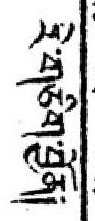རེ་གཅིག་རྒྱོན་།
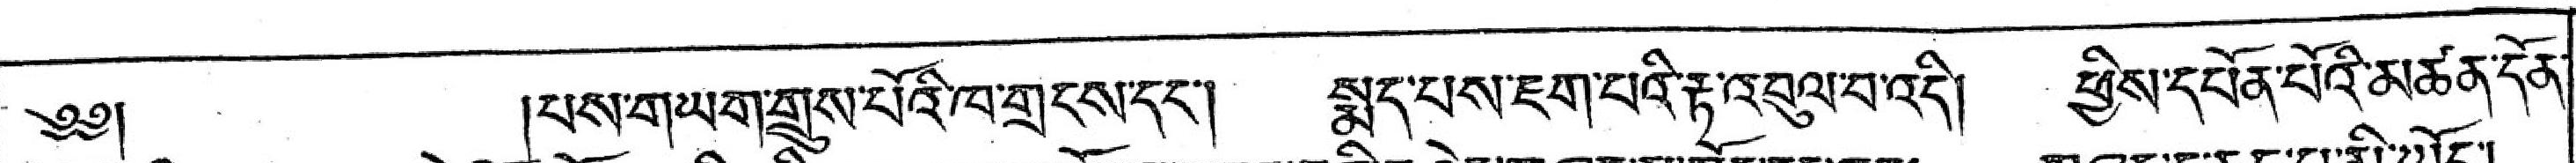༄༅། པས་གཡག་གྲུས་པོའི་ཁ་གྲངས་དང་། སྨད་པས་ཇག་པའི་རྟ་འབུལ་བ་འདི། ཕྱིས་དཔོན་པོའི་མཚན་དོན་
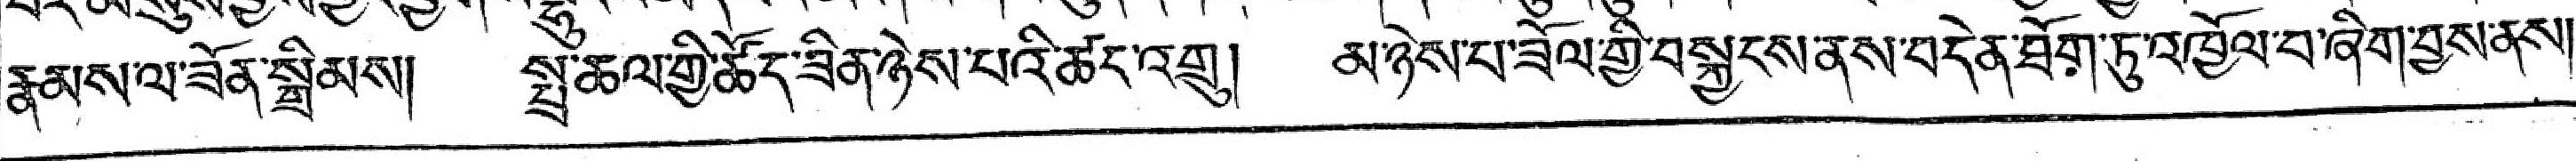རྣམས་ལ་ཟོན་སྒྲིམས། སྤྲ་ཆལ་གྱི་ཚོད་ཟིན་ཉེས་པའི་ཚང་འགྲུ། མ་ཉེས་པ་ཟོལ་གྱི་བསྐྱངས་ནས་བདེན་ཐོག་ཏུ་འཁྱོལ་བ་ཞིག་བྱས་ནས།
